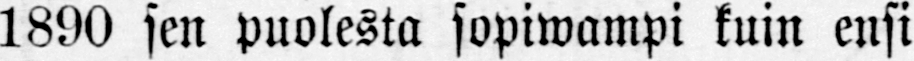1890 sen puolesta sopiwampi kuin ensi
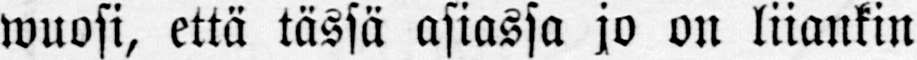wuosi, että tässä asiassa jo on liiankin
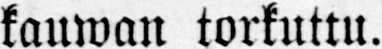kauwan torkuttu.
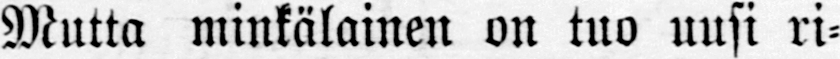Mutta minkälainen on tuo uusi ri-
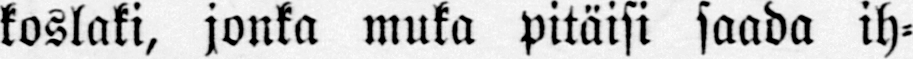koslaki, jonka muka pitäisi saada ih-
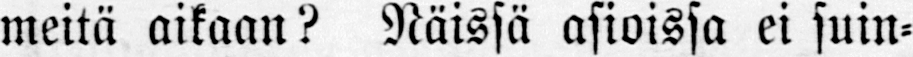meitä aikaan? Näissä asioissa ei suin-
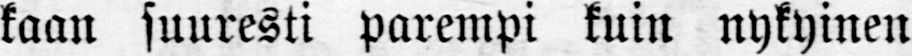kaan suuresti parempi kuin nykyinen
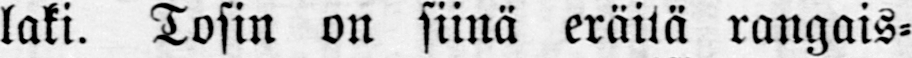laki. Tosin on siinä eräitä rangais-
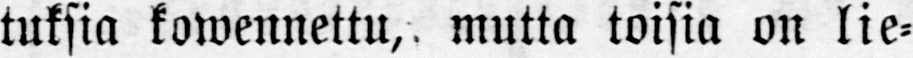tuksia kowennettu,, mutta toisia on lie-
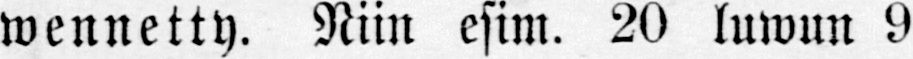wennetty. Niin esim. 20 luwun 9
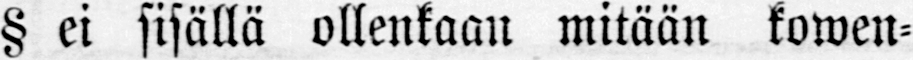§ ei sisällä ollenkaan mitään kowen-
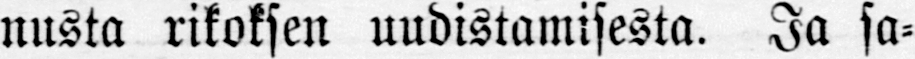nusta rikoksen uudistamisesta. Ja sa-
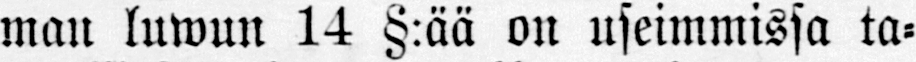man luwun 14 §:ää on useimmissa ta-
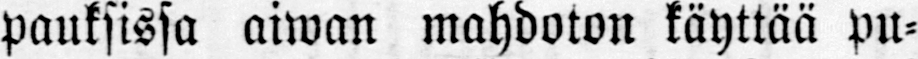pauksissa aiwan mahdoton käyttää pu-
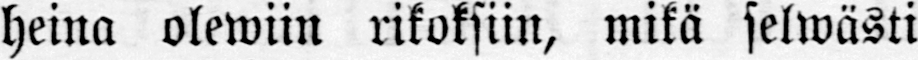heina olewiin rikoksiin, mikä selwästi
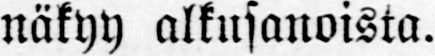näkyy alkusanoista.
